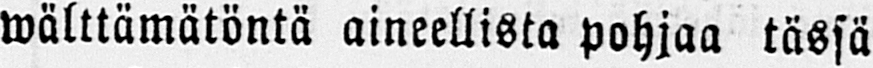wälttämätöntä aineellista pohjaa tässä
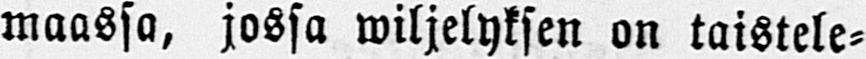maassa, jossa wiljelyksen on taistele-
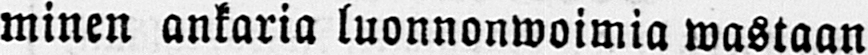minen ankaria luonnonwoimia wastaan
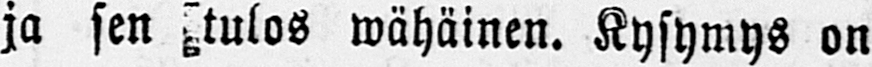ja sen tulos wähäinen. Kysymys on
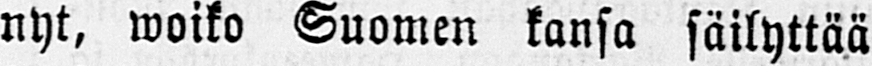nyt, woiko Suomen kansa säilyttää
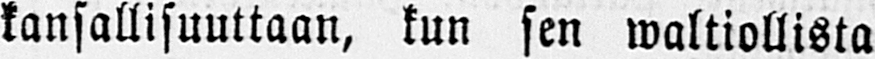kansallisuuttaan, kun sen waltiollista
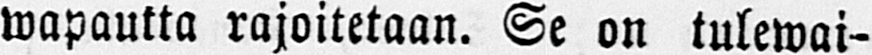wapautta rajoitetaan. Se on tulewai-
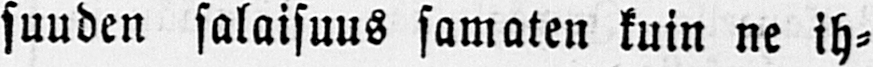suuden salaisuus samaten kuin ne ih-
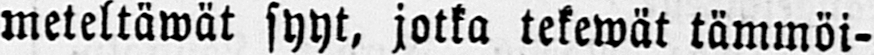meteltäwät syyt, jotka tekewät tämmöi-
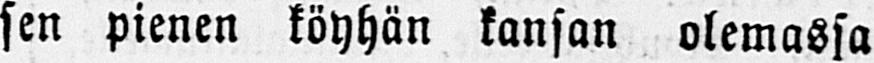sen pienen köyhän kansan olemassa
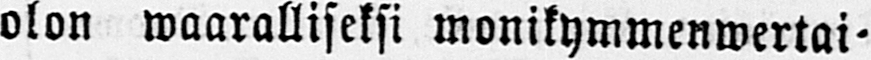olon waaralliseksi monikymmenwertai-
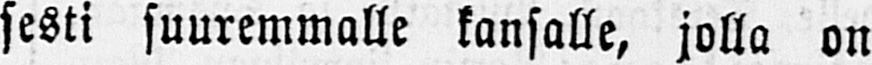sesti suuremmalle kansalle, jolla on
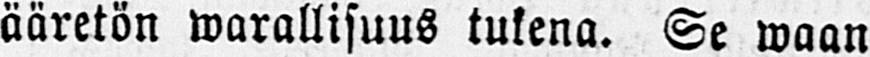ääretön warallisuus tukena. Se waan
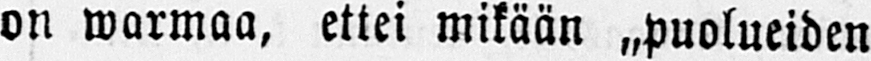on warmaa, ettei mikään „puolueiden
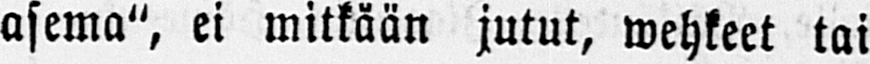asema", ei mitkään jutut, wehkeet tai
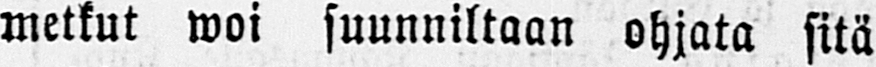metkut woi suunniltaan ohjata sitä
